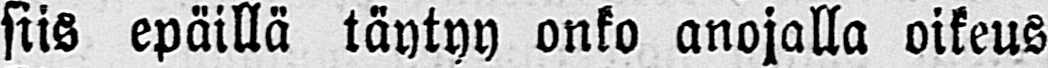siis epäillä täytyy onko anojalla oikeus
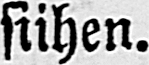siihen.
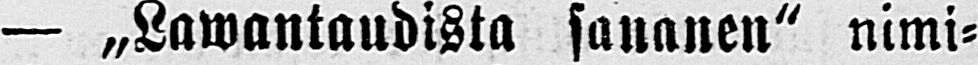— „Lawantaudista sananen" nimi-
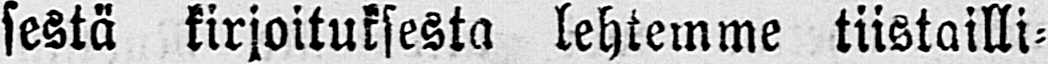sestä kirjoituksesta lehtemme tiistailli-
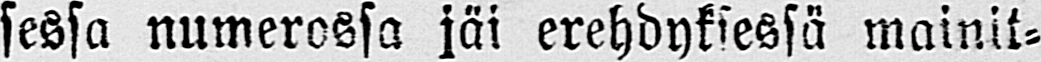sessa numerossa jäi erehdyksessä mainit-
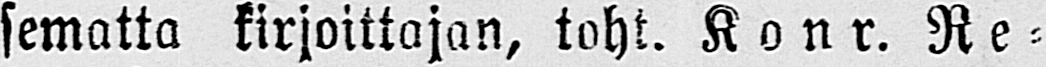sematta kirjoittajan, toht. Konr. Re-
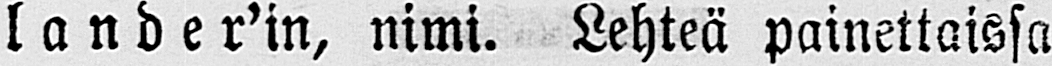lander’in, nimi. Lehteä painettaissa
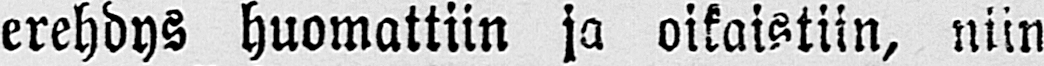erehdys huomattiin ja oikaistiin, niin
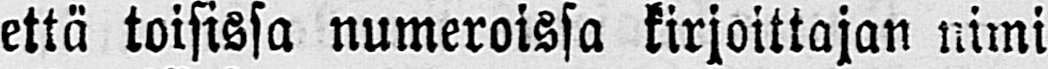että toisissa numeroissa kirjoittajan nimi
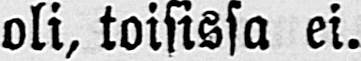oli, toisissa ei.
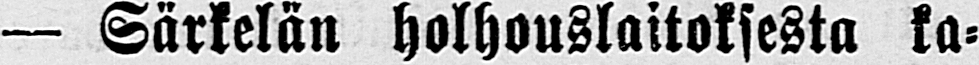— Särkelän holhouslaitoksesta ka-
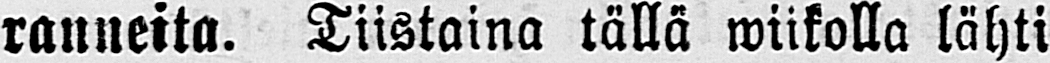ranneita. Tiistaina tällä unikolla lähti
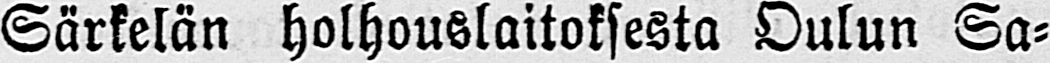Särkelän holhouslaitoksesta Oulun Sa-
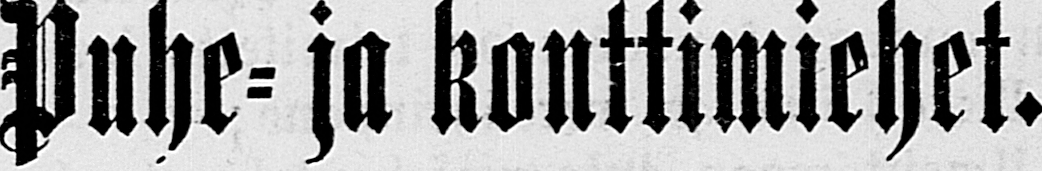Puhe- ja konttimiehet.
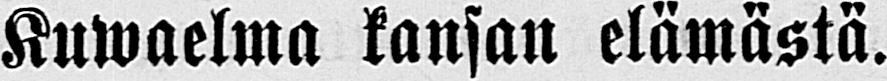Kuwaelma kansan elämästä.
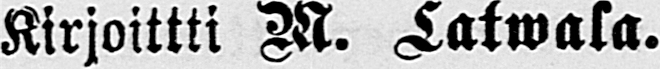Kirjoittti W. Latwala.
